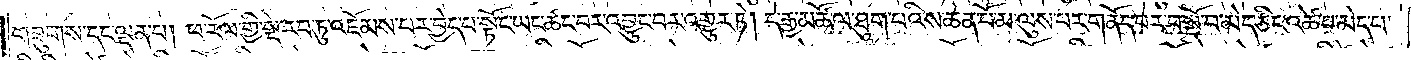གཟུགས་དང་ལྡན་པ། ཕ་རོལ་གྱི་སྡེ་རབ་ཏུ་འཇོམས་པར་བྱེད་པ་སྟོང་ཡང་ཚང་བར་འབྱུང་བར་འགྱུར་ཏེ། དེ་རྒྱ་མཚོ་ལ་ཐུག་པའི་ས་ཆེན་པོ་མ་ལུས་པར་གནོད་པར་(བ་སྔོ་)བ་མེད་ཅིང་འཚེ་བ་མེད་པ་
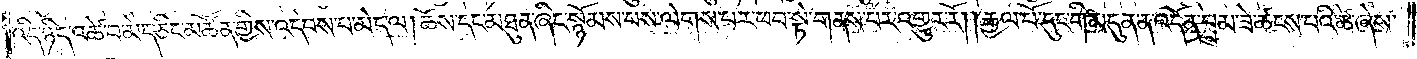འདི་ཉིད་འཚེ་བ་མེད་ཅིང་མཚོན་གྱིས་འདེབས་པ་མེད་ལ། ཆོས་དང་མཐུན་ཞིང་སྙོམས་པས་ལེགས་པར་ཕབ་སྟེ་གནས་པར་འགྱུར་རོ། །རྒྱལ་པོ་དུང་གི་མདུན་ན་འདོན་བྲམ་ཟེ་ཚངས་པའི་ཚེ་ཞེས་
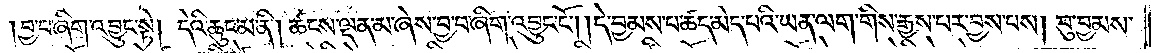བྱ་བ་ཞིག་འབྱུང་སྟེ། དེའི་ཆུང་མ་ནི། ཚངས་ལྡན་མ་ཞེས་བྱ་བ་ཞིག་འབྱུང་ངོ༌། །དེ་བྱམས་པ་ཚད་མེད་པའི་ཡན་ལག་གིས་རྒྱས་པར་བྱས་པས། བུ་བྱམས་
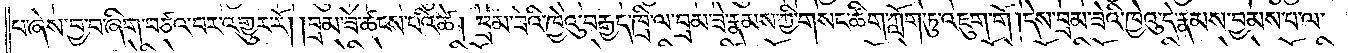པ་ཞེས་བྱ་བ་ཞིག་བཙའ་བར་འགྱུར་རོ། །བྲམ་ཟེ་ཚངས་པའི་ཚེ། བྲམ་ཟེའི་ཁྱེའུ་བརྒྱད་ཁྲི་ལ་བྲམ་ཟེ་རྣམས་ཀྱི་གསང་ཚིག་ཀློག་ཏུ་འཇུག་གོ །དེས་བྲམ་ཟེའི་ཁྱེའུ་དེ་རྣམས་བྱམས་པ་ལ་
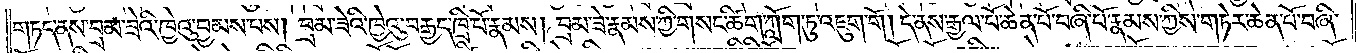གཏད་ནས་བྲམ་ཟེའི་ཁྱེའུ་བྱམས་པས། བྲམ་ཟེའི་ཁྱེའུ་བརྒྱད་ཁྲི་པོ་རྣམས། བྲམ་ཟེ་རྣམས་ཀྱི་གསང་ཚིག་ཀློག་ཏུ་འཇུག་གོ། །དེ་ནས་རྒྱལ་པོ་ཆེན་པོ་བཞི་པོ་རྣམས་ཀྱིས་གཏེར་ཆེན་པོ་བཞི་
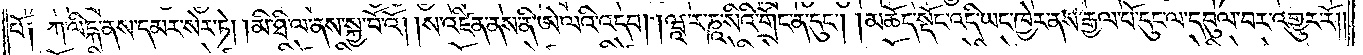པོ༑ ཀ་ལིངྐ་ནས་དམར་སེར་ཏེ། །མི་ཐི་ལ་ནས་སྐྱ་བོའོ། །ས་འཛིན་ནས་ནི་ཨེ་ལའི་འདབ། །ཝཱ་ར་ཎཱ་སིའི་གྲོང་ན་དུང༌། །མཆོད་སྡོང་འདི་ཡང་ཁྱེར་ནས་རྒྱལ་པོ་དུང་ལ་དབུལ་བར་འགྱུར་རོ། །
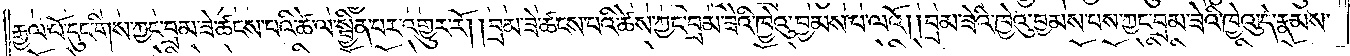རྒྱལ་པོ་དུང་གིས་ཀྱང་བྲམ་ཟེ་ཚངས་པའི་ཆེ་ལ་སྦྱིན་པར་འགྱུར་རོ། །བྲམ་ཟེ་ཚངས་པའི་ཚེས་ཀྱང་བྲམ་ཟེའི་ཁྱེའུ་བྱམས་པ་ལའོ། །བྲམ་ཟེའི་ཁྱེའུ་བྱམས་པས་ཀྱང་བྲམ་ཟེའི་ཁྱེའུ་དེ་རྣམས་
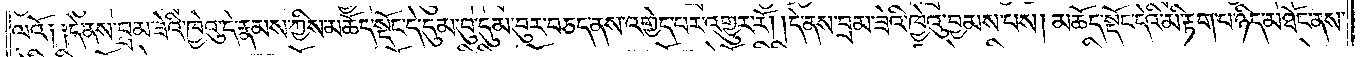ལའོ༑ ༑དེ་ནས་བྲམ་ཟེའི་ཁྱེའུ་དེ་རྣམས་ཀྱིས་མཆོད་སྡོང་དེ་དུམ་བུ་དུམ་བུར་བཅད་ནས་འགྱེད་པར་འགྱུར་རོ། །དེ་ནས་བྲམ་ཟེའི་ཁྱེའུ་བྱམས་པས། མཆོད་སྡོང་དེའི་མི་རྟག་པ་ཉིད་མཐོང་ནས་
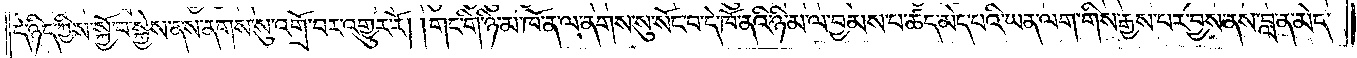དེ་ཉིད་ཀྱིས་སྐྱོ་བ་སྐྱེས་ནས་ནགས་སུ་འགྲོ་བར་འགྱུར་རོ། །གང་གི་ཉི་མ་ཁོ་ན་ལ་ལགས་སུ་སོང་བ་དེ་ཁོ་ནའི་ཉི་མ་ལ་བྱམས་པ་ཚད་མེད་པའི་ཡང་ལག་གིས་རྒྱས་པར་བྱས་ནས་བླ་ན་མེད་
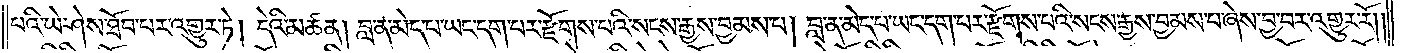པའི་ཡེ་ཤེས་ཐོབ་པར་འགྱུར་ཏེ། དེའི་མཚན། བླ་ན་མེད་པ་ཡང་དག་པར་རྫོགས་པའི་སངས་རྒྱས་བྱམས་པ། བླ་ན་མེད་པ་ཡང་དག་པར་རྫོགས་པའི་སངས་རྒྱས་བྱམས་པ་ཞེས་བྱ་བར་འགྱུར་རོ༎
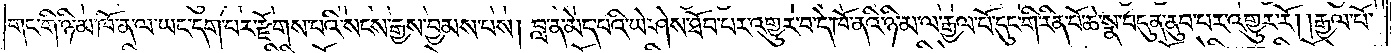གང་གི་ཉི་མ་ཁོ་ན་ལ་ཡང་དག་པར་རྫོགས་པའི་སངས་རྒྱས་བྱམས་པས། བླ་ན་མེད་པའི་ཡེ་ཤེས་ཐོབ་པར་འགྱུར་བ་དེ་ཁོ་ནའི་ཉི་མ་ལ་རྒྱལ་པོ་དུང་གི་རིན་པོ་ཆེ་སྣ་བདུན་ནུབ་པར་འགྱུར་རོ། །རྒྱལ་པོ་
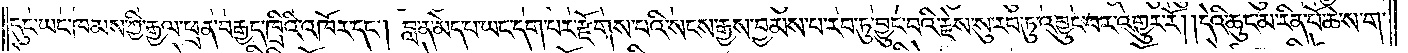དུང་ཡང་ཁམས་ཀྱི་རྒྱལ་ཕྲན་བརྒྱད་ཁྲིའི་འཁོར་དང༌། བླ་ན་མེད་པ་ཡང་དག་པར་རྫོགས་པའི་སངས་རྒྱས་བྱམས་པ་རབ་ཏུ་བྱུང་བའི་རྗེས་སུ་རབ་ཏུ་འབྱུང་བར་འགྱུར་རོ། །དེའི་ཆུང་མ་རིན་པོ་ཆེ་ས་ག་
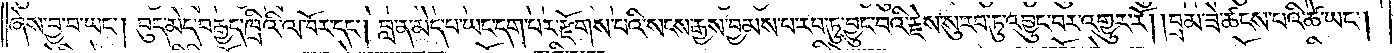ཞེས་བྱ་བ་ཡང༌། བུད་མེད་བརྒྱད་ཁྲིའི་འཁོར་དང༌། བླ་ན་མེད་པ་ཡང་དག་པར་རྫོགས་པའི་སངས་རྒྱས་བྱམས་པ་རབ་ཏུ་བྱུང་བའི་རྗེས་སུ་རབ་ཏུ་འབྱུང་བར་འགྱུར་རོ། །བྲམ་ཟེ་ཚངས་པའི་ཚེ་ཡང༌།
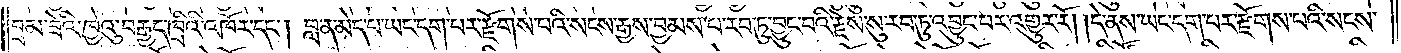བྲམ་ཟེའི་ཁྱེའུ་བརྒྱད་ཁྲིའི་འཁོར་དང༌། བླ་ན་མེད་པ་ཡང་དག་པར་རྫོགས་པའི་སངས་རྒྱས་བྱམས་པ་རབ་ཏུ་བྱུང་བའི་རྗེས་སུ་རབ་ཏུ་འབྱུང་བར་འགྱུར་རོ། །དེ་ནས་ཡང་དག་པར་རྫོགས་པའི་སངས་
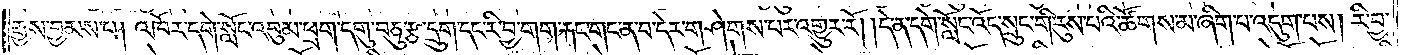རྒྱས་བྱམས་པ། འཁོར་དགེ་སློང་འབུམ་ཕྲག་དགུ་བཅུ་རྩ་དྲུག་དང་རི་བྱ་གག་རྐང་གང་ན་བ་དེར་གཤེགས་པར་འགྱུར་རོ། །དེ་ན་དགེ་སློང་འོད་སྲུང་གི་རུས་པའི་ཚོགས་མ་ཞིག་པ་འདུག་པས། རི་བྱ་
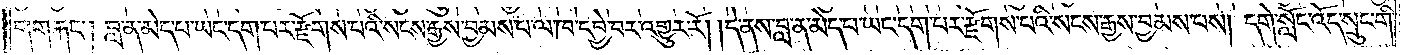གག་རྐང༌། བླ་ན་མེད་པ་ཡང་དག་པར་རྫོགས་པའི་སངས་རྒྱས་བྱམས་པ་ལ་ཁ་དབྱེ་བར་འགྱུར་རོ། །དེ་ནས་བླ་ན་མེད་པ་ཡང་དག་པར་རྫོགས་པའི་སངས་རྒྱས་བྱམས་པས། དགེ་སློང་འོད་སྲུང་གི་
